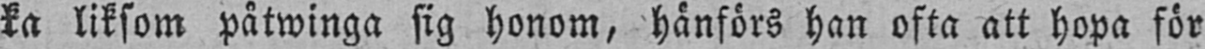ka liksom påtwinga sig honom, hänförs han ofta att hopa för
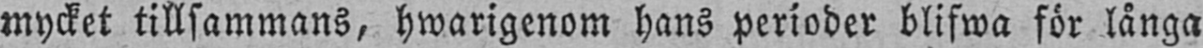mycket tillsammans, hwarigenom hans perioder blifwa för långa
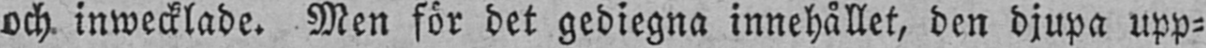och inwecklade. Men för det gediegna innehållet, den djupa upp-
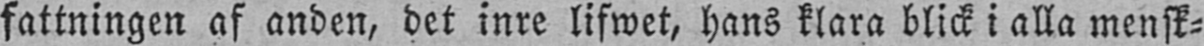fattningen af anden, det inre lifwet, hans klara blick i alla mensk-
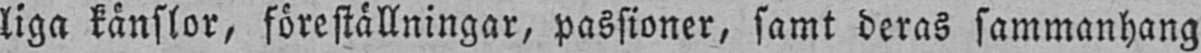liga känslor, föreställningar, passioner, samt deras sammanhang
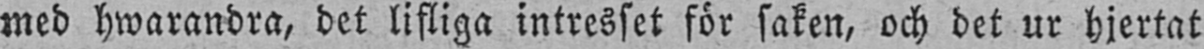med hwarandra, det lifliga intresset för saken, och det ur hjertat
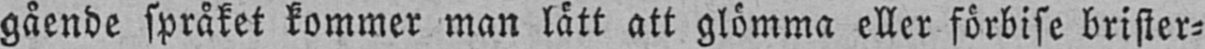gående språket kommer man lätt att glömma eller förbise brister-
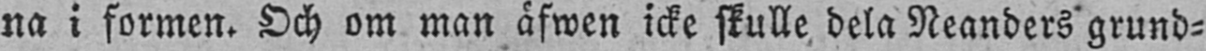na i formen. Och om man äfwen icke skulle dela Neanders grund-
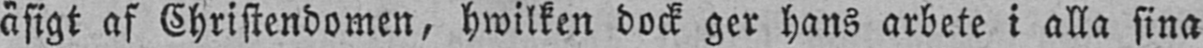åsigt af Christendomen, hwilken dock ger hans arbete i alla sina
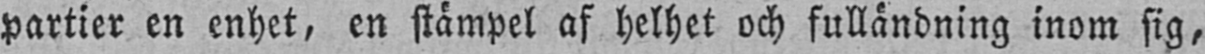partier en enhet, en stämpel af helhet och fulländning inom sig,
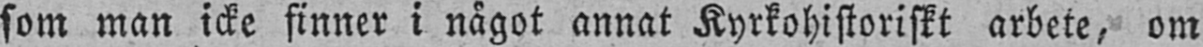som man icke finner i något annat Kyrkohistoriskt arbete, om
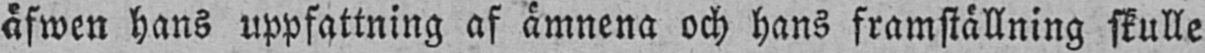äfwen hans uppfattning af ämnena och hans framställning skulle
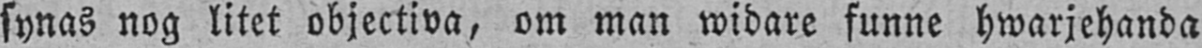synas nog litet objectiva, om man widare funne hwarjehanda
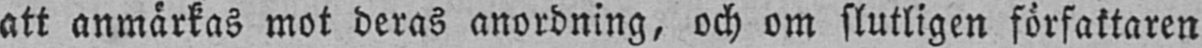att anmärkas mot deras anordning, och om slutligen författaren
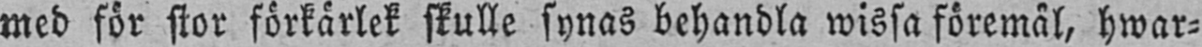med för stor förkärlek skulle synas behandla wissa föremäl, hwar-
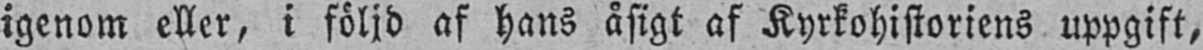igenom eller, i följd af hans åsigt af Kyrkohistoriens uppgift,
